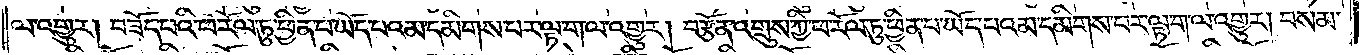ལ་འགྱུར། བཟོད་པའི་ཕ་རོལ་ཏུ་ཕྱིན་པ་ཡོད་པའམ་དམིགས་པར་ལྟ་ག་ལ་འགྱུར། བརྩོན་འགྲུས་ཀྱི་ཕ་རོལ་ཏུ་ཕྱིན་པ་ཡོད་པའམ་དམིགས་པར་ལྟ་ག་ལ་འགྱུར། བསམ་
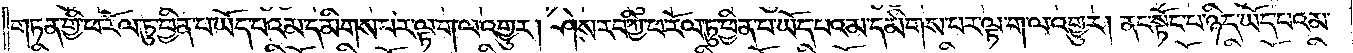གཏན་གྱི་ཕ་རོལ་ཏུ་ཕྱིན་པ་ཡོད་པའམ་དམིགས་པར་ལྟ་ག་ལ་འགྱུར། ཤེས་རབ་ཀྱི་ཕ་རོལ་ཏུ་ཕྱིན་པ་ཡོད་པའམ་དམིགས་པར་ལྟ་ག་ལ་འགྱུར། ནང་སྟོང་པར་ཉིད་ཡོད་པའམ་
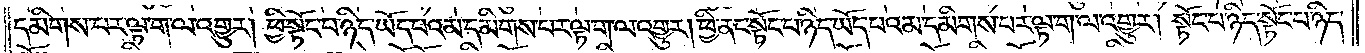དམིགས་པར་ལྟ་ག་ལ་འགྱུར། ཕྱི་སྟོང་པ་ཉིད་ཡོད་པའམ་དམིགས་པར་ལྟ་ག་ལ་འགྱུར། ཕྱི་ནང་སྟོང་པ་ཉིད་ཡོད་པའམ་དམིགས་པར་ལྟ་ག་ལ་འགྱུར། སྟོང་པ་ཉིད་སྟོང་པ་ཉིད་
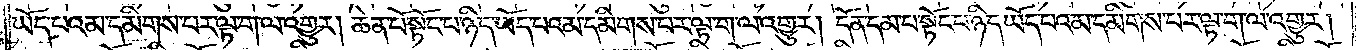ཡོད་པའམ་དམིགས་པར་ལྟ་ག་ལ་འགྱུར། ཆེན་པོ་སྟོང་པ་ཉིད་ཡོད་པའམ་དམིགས་པར་ལྟ་ག་ལ་འགྱུར། དོན་དམ་པ་སྟོང་པ་ཉིད་ཡོད་པའམ་དམིགས་པར་ལྟ་ག་ལ་འགྱུར།
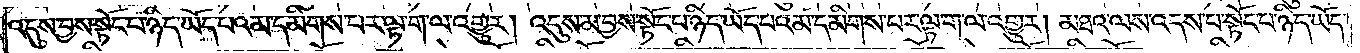འདུས་བྱས་སྟོང་པ་ཉིད་ཡོད་པའམ་དམིགས་པར་ལྟ་ག་ལ་འགྱུར། འདུས་མ་བྱས་སྟོང་པ་ཉིད་ཡོད་པའམ་དམིགས་པར་ལྟ་ག་ལ་འགྱུར། མཐའ་ལས་འདས་པ་སྟོང་པ་ཉིད་ཡོད་
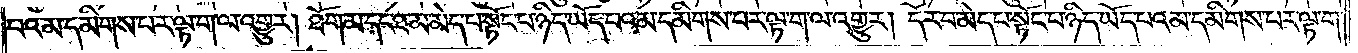པའམ་དམིགས་པར་ལྟ་ག་ལ་འགྱུར། ཐོག་མ་དང་ཐ་མ་མེད་པ་སྟོང་པ་ཉིད་ཡོད་པའམ་དམིགས་པར་ལྟ་ག་ལ་འགྱུར། དོར་བ་མེད་པ་སྟོང་པ་ཉིད་ཡོད་པའམ་དམིགས་པར་ལྟ་ག་
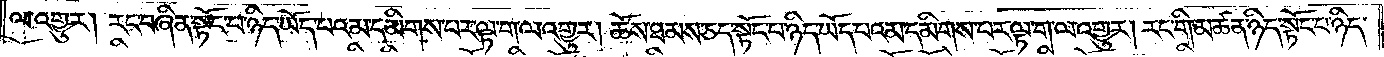ལ་འགྱུར། རང་བཞིན་སྟོང་པ་ཉིད་ཡོད་པའམ་དམིགས་པར་ལྟ་ག་ལ་འགྱུར། ཆོས་ཐམས་ཅད་སྟོང་པ་ཉིད་ཡོད་པའམ་དམིགས་པར་ལྟ་ག་ལ་འགྱུར། རང་གི་མཚན་ཉིད་སྟོང་པར་ཉིད་
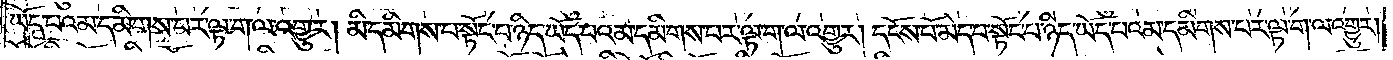ཡོད་པའམ་དམིགས་པར་ལྟ་ག་ལ་འགྱུར། མི་དམིགས་པ་སྟོང་པ་ཉིད་ཡོད་པའམ་དམིགས་པར་ལྟ་ག་ལ་འགྱུར། དངོས་པོ་མེད་པ་སྟོང་པ་ཉིད་ཡོད་པའམ་དམིགས་པར་ལྟ་ག་ལ་འགྱུར།
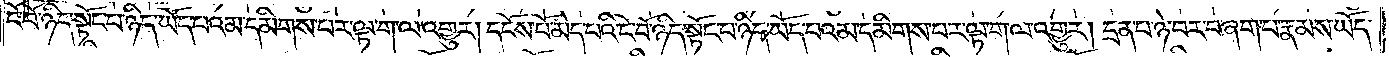ངོ་བོ་ཉིད་སྟོང་པ་ཉིད་ཡོད་པའམ་དམིགས་པར་ལྟ་ག་ལ་འགྱུར། དངོས་པོ་མེད་པའི་ངོ་བོ་ཉིད་སྟོང་པ་ཉིད་ཡོད་པའམ་དམིགས་པར་ལྟ་ག་ལ་འགྱུར། དྲན་པ་ཉེ་བར་བཞག་པ་རྣམས་ཡོད་
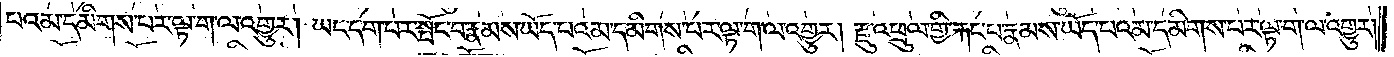པའམ་དམིགས་པར་ལྟ་ག་ལ་འགྱུར། ཡང་དག་པར་སྤོང་བ་རྣམས་ཡོད་པའམ་དམིགས་པར་ལྟ་ག་ལ་འགྱུར། རྫུ་འཕྲུལ་གྱི་རྐང་པ་རྣམས་ཡོད་པའམ་དམིགས་པར་ལྟ་ག་ལ་འགྱུར།
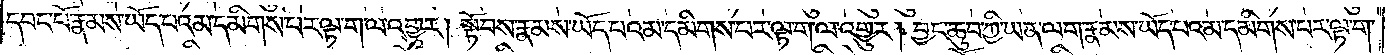དབང་པོ་རྣམས་ཡོད་པའམ་དམིགས་པར་ལྟ་ག་ལ་འགྱུར། སྟོབས་རྣམས་ཡོད་པའམ་དམིགས་པར་ལྟ་ག་ལ་འགྱུར། བྱང་ཆུབ་ཀྱི་ཡན་ལག་རྣམས་ཡོད་པའམ་དམིགས་པར་ལྟ་ག་
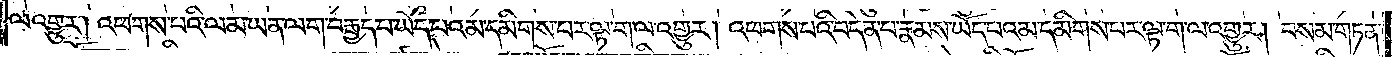ལ་འགྱུར། འཕགས་པའི་ལམ་ཡན་ལག་བརྒྱད་པ་ཡོད་པའམ་དམིགས་པར་ལྟ་ག་ལ་འགྱུར། འཕགས་པའི་བདེན་པ་རྣམས་ཡོད་པའམ་དམིགས་པར་ལྟ་ག་ལ་འགྱུར། བསམ་གཏན་
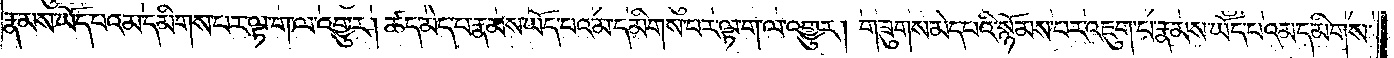རྣམས་ཡོད་པའམ་དམིགས་པར་ལྟ་ག་ལ་འགྱུར། ཚད་མེད་པ་རྣམས་ཡོད་པའམ་དམིགས་པར་ལྟ་ག་ལ་འགྱུར། གཟུགས་མེད་པའི་སྙོམས་པར་འཇུག་པ་རྣམས་ཡོད་པའམ་དམིགས་
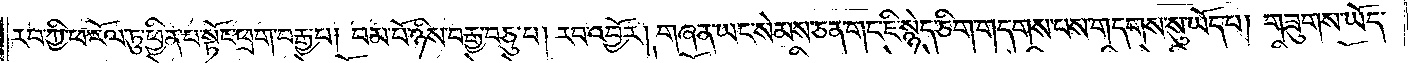རབ་ཀྱི་ཕ་རོལ་ཏུ་ཕྱིན་པ་སྟོང་ཕྲག་བརྒྱ་པ། །བམ་པོ་ཉིས་བརྒྱ་དགུ་པ། །རབ་འབྱོར། གཞན་ཡང་སེམས་ཅན་གང་ཇི་སྙེད་ཅིག་གདགས་པས་གདགས་སུ་ཡོད་པ། གཟུགས་ཡོད་
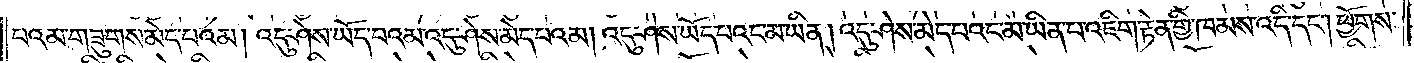པའམ་གཟུགས་མེད་པའམ། འདུ་ཤེས་ཡོད་པའམ་འདུ་ཤེས་མེད་པའམ། འདུ་ཤེས་ཡོད་པའང་མ་ཡིན། འདུ་ཤེས་མེད་པའང་མ་ཡིན་པ་འཇིག་རྟེན་གྱི་ཁམས་འདི་དང༌། ཕྱོགས་
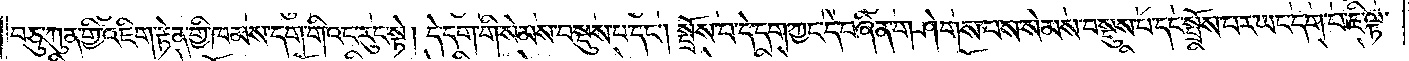བཅུ་ཀུན་གྱི་འཇིག་རྟེན་གྱི་ཁམས་དག་གིའང་རུང་སྟེ། དེ་དག་གི་སེམས་བསྡུས་པ་དང༌། སྤྲོས་པ་དེ་དག་ཀྱང་དེ་བཞིན་གཤེགས་པས་སེམས་བསྡུས་པ་དང་སྤྲོས་པར་ཡང་དག་པ་ཇི་ལྟ་
